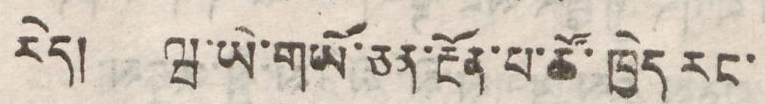རེད། ཝ་ཡེ་གཡོ་ཅན་རྔོན་པ་ཚོ་ཁྱེད རང་
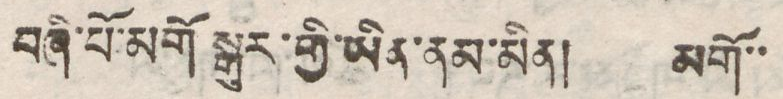བཞི་པོ་མགོ སྒུར་གྱི་ཡིན་ནམ་མིན། མགོ་་
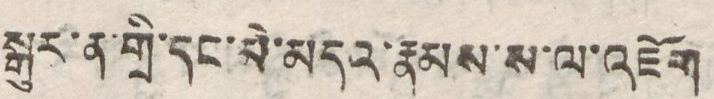སྒུར་ན་གྲི་དང་མེ་མདའ་རྣམས་ས་ལ་འཇོག
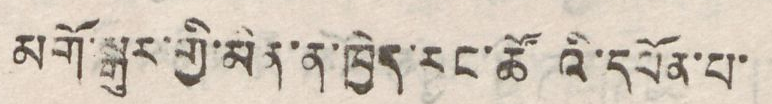མགོ་སྒུར་གྱི་མིན་ན་ཁྱེད་རང་ཚོའི་དཔོན་པ་
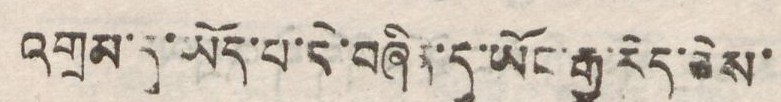འགྲམ་དུ་ཡོད་པ་དེ་བཞིན་དུ་ཡོང་རྒྱུ་རེད་ཅེས་
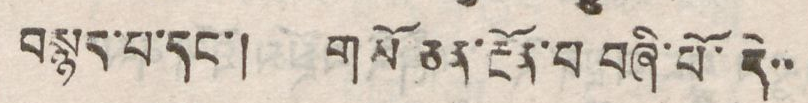བསྙན་པ་དང་། གཡོ ཅན་རྔོན་པ བཞི་པོ་དེ་་
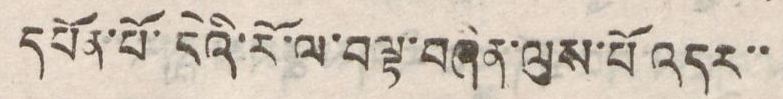དཔོན་པོ་དེའི་རོ་ལོ་བལྟ་བཞིན་ལུས་པོ་འདར་་
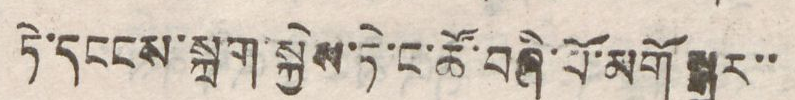ཏེ་དངངས་སྐྲག་སྐྱེས་ཏེ་ང་ཚོ་བཞི་པོ་མགོ་སྒུར་་
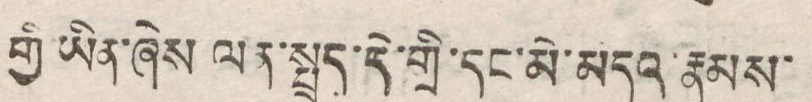གྱི་ཡིན་ཞེས ལན་སྤྲད་དེ་གྲི་དང་མེ་མདའ་རྣམས་
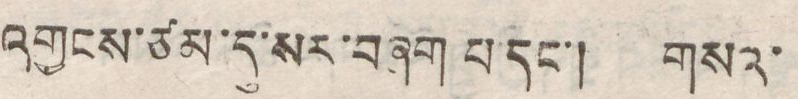འགྱངས་ཙམ་དུ་སར་བཞག པ་དང་། གསའ་
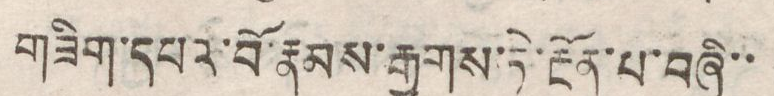གཟིག་དཔའ་བོ་རྣམས་རྒྱུགས་ཏེ་རྔོན་པ་བཞི་་
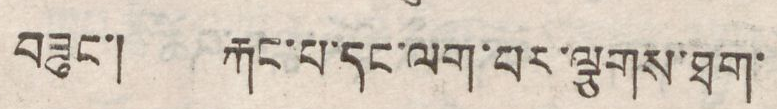བཟུང་། རྐང་པ་དང་ལག་པར་ལྕགས་ཐག་
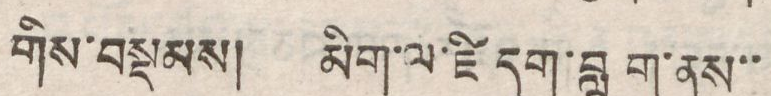གིས་བསྡམས། མིག་ལ་རྫི དུག་བླུག་ནས་་
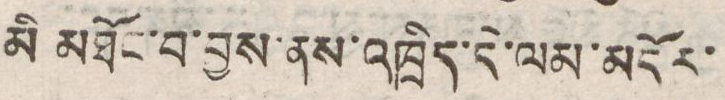མི མཐོང་བ་བྱས་ནས་འཁྲིད་དེ་ལམ་མདོར་
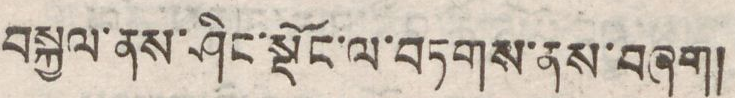བསྐྱལ་ནས་ཤིང་སྡོང་ལ་བཏགས་ནས་བཞག།
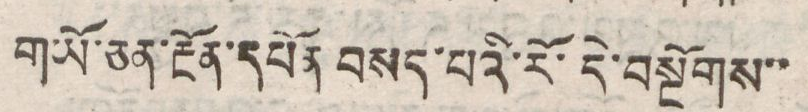གཡོ་ཅན་རྔོན་དཔོན བསད་པའི་རོ་དེ་བསྔོགས་་
